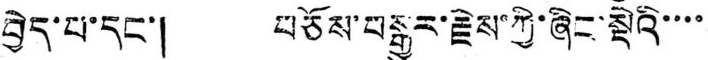བྱེད་པ་དང་། བཅོས་བསྒྱུར་རྗེས་ཀྱི་ཞིང་སྡེའི་་་་
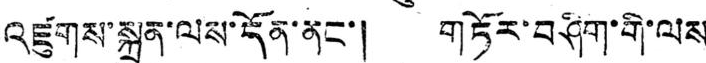འཛུགས་སྐྲུན་ལས་དོན་ནང་། གཏོར་བཤིག་གི་ལས
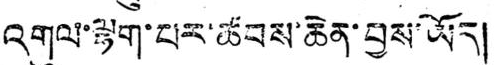འགུལ་ལྷག་པར་ཚབས་ཆེན་བྱས་ཡོད།
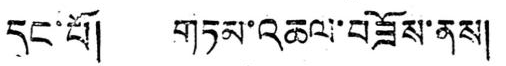དང་པོ། གཏམ་འཆལ་བཟོས་ནས།
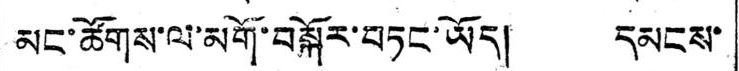མང་ཚོགས་ལ་མགོ་བསྐོར་བཏང་ཡོད། དམངས་
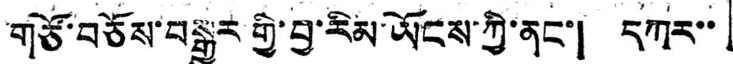གཙོ་བཅོས་བསྒྱུར་གྱི་བྱ་རིམ་ཡོངས་ཀྱི་ནང་། དཀར་་
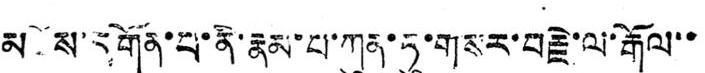མཛེས་དགོན་པ་ནི་རྣམ་པ་ཀུན་ཏུ་གསར་བརྗེ་ལ་རྒོལ་་
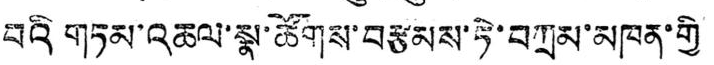བའི གཏམ་འཆལ་སྣ་ཚོགས་བརྩམས་ཏེ་བཀྲམ་མཁན་གྱི
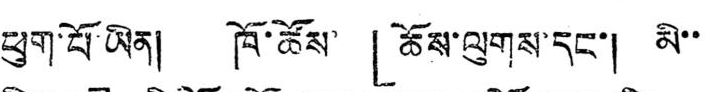ཕུག་པོ་ཡིན། ཁོ་ཚོས་ 「ཆོས་ལུགས་དང་། མི་་
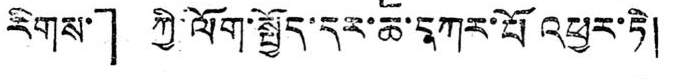རིགས་」 ཀྱི་ལོག་སྦྱོད་དར་ཆ་དཀར་པོ འཕྱར་ཏི།
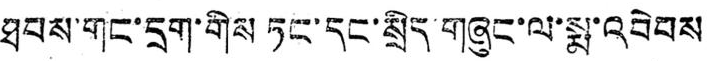ཐབས་གང་དྲག་གིས ཏང་དང་སྲིད་གཞུང་ལ་སྨ་འབེབས
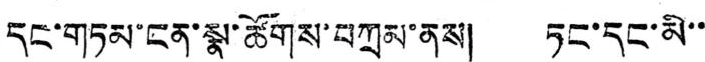དང་གཏམ་ངན་སྣ་ཚོགས་བཀྲམ་ནས། ཏང་དང་མི་་
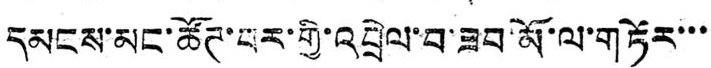དམངས་མང་ཚོཊ་པར་གྱི་འབྲེལ་བ་ཟབ་མོ་ལ་གཏོར་་་
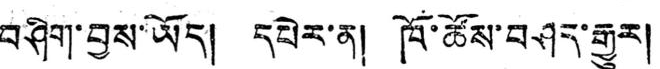བཤིག་བྱས་ཡོད། དཔེར་ན། ཁོ་ཚོས་བཤད་རྒྱུར།
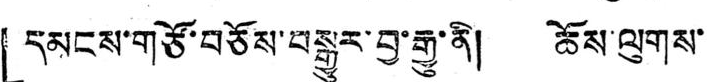「 དམངས་གཙོ་བཅོས་བསྒྱུར་བྱ་རྒྱུ་ནི། ཆོས་ལུགས་
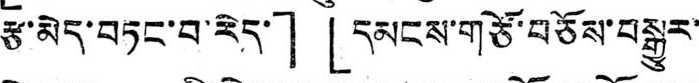རྩ་མེད་བཏང་བ་རེད་」「དམངས་གཙོ་བཅོས་བསྒྱུར་
